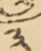༣
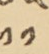༡༡
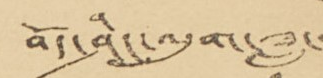བོད་ཤིང་ལུག་ཟླ་
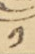༡
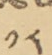༡༨
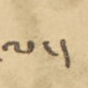ལ་།
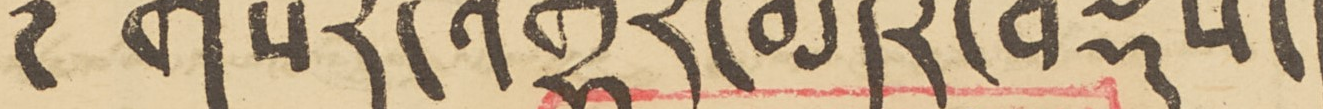གསར་འགྱུར་མདོར་བསྡུས་།
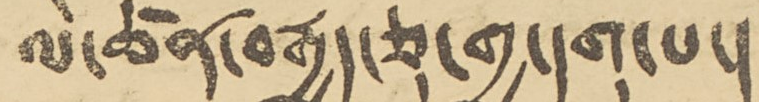ལེ་ཚན་བརྒྱད་ཅུ་གྱ་དགུ་པ་།
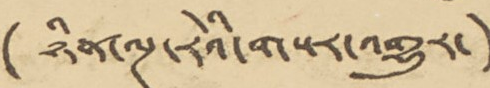(ཉིན་ལྔ་རེའི་གསར་འགྱུར་)
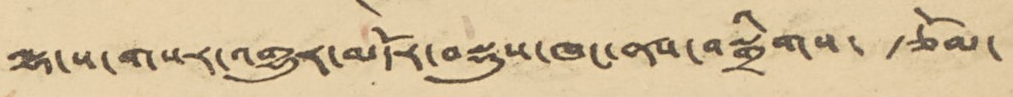ལྷ་ས་གསར་འགྱུར་མདོར་བསྡུས་ཁང་ནས་བསྒྲིགས་ རྩོམ་
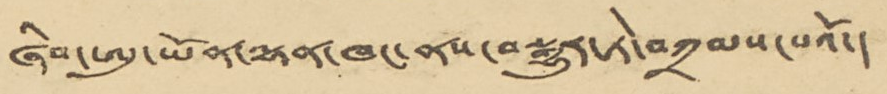ཞིབ་ཨུ་ཡོན་ལྷན་ཁང་ནས་བསྒྱུར་ཏེ་བཀྲམས་པའོ་།
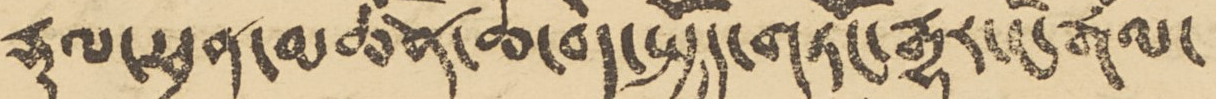རྡུལ་ཕྲན་མཚོན་ཆ་བེད་སྤྱོད་གཏོང་རྒྱུར་ངོ་རྒོལ་
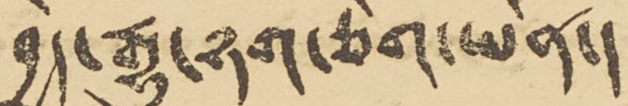བྱེད་རྒྱུ་ཉག་ཅིག་ཡིན་༧
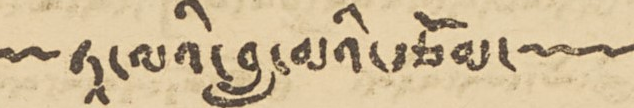ཏཱ་ལའི་བླ་མའི་རྩོམ་
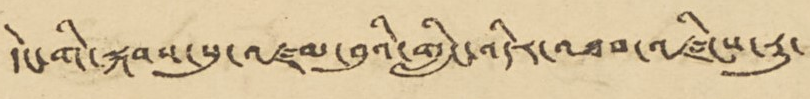དེང་གི་སྐབས་སུ་འཛམ་བུའི་གླིང་འདིར་འཐབ་འཛིངས་རུ་
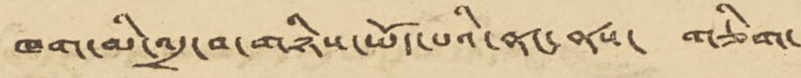ཁག་མི་འདྲ་བ་གཉིས་ཡོད་པའི་ནང་ནས་ གཅིག་
